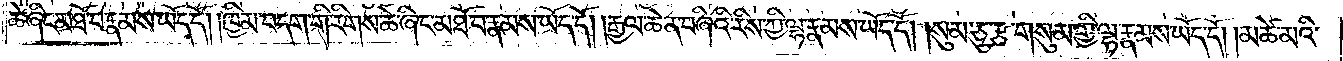ཆེ་ཞིང་མཐོ་བ་རྣམས་ཡོད་དོ། །ཁྱིམ་བདག་གི་རིགས་ཆེ་ཞིང་མཐོ་བ་རྣམས་ཡོད་དོ། །རྒྱལ་ཆེན་བཞིའི་རིས་ཀྱི་ལྷ་རྣམས་ཡོད་དོ། །སུམ་ཅུ་རྩ་གསུམ་གྱི་ལྷ་རྣམས་ཡོད་དོ། །མཚེ་མའི་
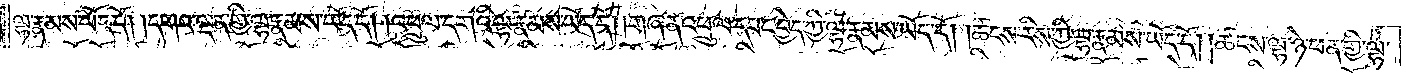ལྷ་རྣམས་ཡོད་དོ། །དགའ་ལྡན་གྱི་ལྷ་རྣམས་ཡོད་དོ། །འཕྲུལ་དགའི་ལྷ་རྣམས་ཡོད་དོ། །གཞན་འཕྲུལ་དབང་བྱེད་ཀྱི་ལྷ་རྣམས་ཡོད་དོ། །ཚངས་རིས་ཀྱི་ལྷ་རྣམས་ཡོད་དོ། །ཚངས་ལྷ་ཉེ་ཕན་གྱི་ལྷ་
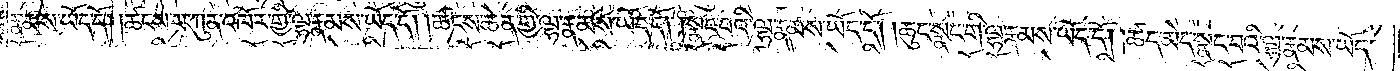རྣམས་ཡོད་དོ། །ཚངས་པ་ཀུན་འཁོར་གྱི་ལྷ་རྣམས་ཡོད་དོ། །ཚངས་ཆེན་གྱི་ལྷ་རྣམས་ཡོད་དོ། །སྣང་བའི་ལྷ་རྣམས་ཡོད་དོ། །ཆུང་སྣང་གི་ལྷ་རྣམས་ཡོད་དོ། །ཚད་མེད་སྣང་བའི་ལྷ་རྣམས་ཡོད་
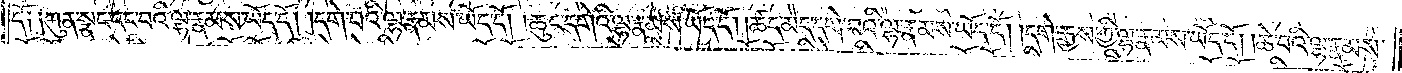དོ༑ ༑ཀུན་སྣང་དང་བའི་ལྷ་རྣམས་ཡོད་དོ། །དགེ་བའི་ལྷ་རྣམས་ཡོད་དོ། །ཆུང་དགེའི་ལྷ་རྣམས་ཡོད་དོ། །ཚད་མེད་དགེ་བའི་ལྷ་རྣམས་ཡོད་དོ། །དགེ་རྒྱས་ཀྱི་ལྷ་རྣམས་ཡོད་དོ༎ ཆེ་བའི་ལྷ་རྣམས་
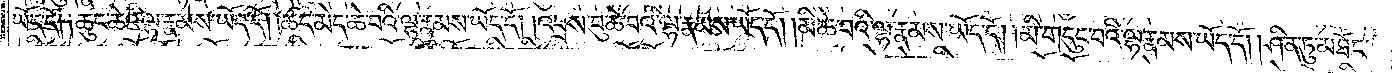ཡོད་དོ། །ཆུང་ཆེའི་ལྷ་རྣམས་ཡོད་དོ། །ཚད་མེད་ཆེ་བའི་ལྷ་རྣམས་ཡོད་དོ། །འབྲས་བུ་ཆེ་བའི་ལྷ་རྣམས་ཡོད་དོ། །མི་ཆེ་བའི་ལྷ་རྣམས་ཡོད་དོ། །མི་གདུང་བའི་ལྷ་རྣམས་ཡོད་དོ། །ཤིན་ཏུ་མཐོང་
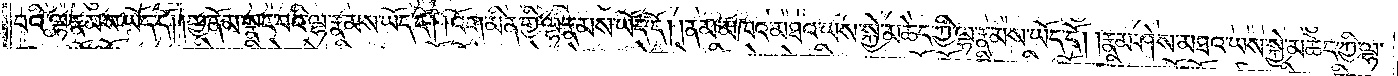བའི་ལྷ་རྣམས་ཡོད་དོ། །གྱ་ནོམ་སྣང་བའི་ལྷ་རྣམས་ཡོད་དོ། །འོག་མིན་གྱི་ལྷ་རྣམས་ཡོད་དོ། །ནམ་མཁའ་མཐའ་ཡས་སྐྱེ་མཆེད་ཀྱི་ལྷ་རྣམས་ཡོད་དོ། །རྣམ་ཤེས་མཐའ་ཡས་སྐྱེ་མཆེད་ཀྱི་ལྷ་
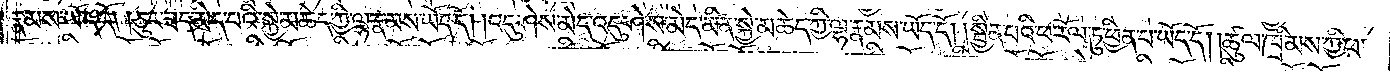རྣམས་ཡོད་དོ། །ཅུང་ཟད་མེད་པའི་སྐྱེ་མཆེད་ཀྱི་ལྷ་རྣམས་ཡོད་དོ། །འདུ་ཤེས་མེད་འདུ་ཤེས་མེད་མིན་སྐྱེ་མཆེད་ཀྱི་ལྷ་རྣམས་ཡོད་དོ། །སྦྱིན་པའི་ཕ་རོལ་ཏུ་ཕྱིན་པ་ཡོད་དོ། །ཚུལ་ཁྲིམས་ཀྱི་ཕ་
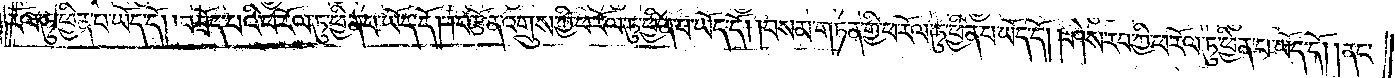རོལ་ཏུ་ཕྱིན་པ་ཡོད་དོ། །བཟོད་པའི་ཕ་རོལ་ཏུ་ཕྱིན་པ་ཡོད་དོ། །བརྩོན་འགྲུས་ཀྱི་ཕ་རོལ་ཏུ་ཕྱིན་པ་ཡོད་དོ། །བསམ་གཏན་གྱི་ཕ་རོལ་ཏུ་ཕྱིན་པ་ཡོད་དོ། །ཤེས་རབ་ཀྱི་ཕ་རོལ་ཏུ་ཕྱིན་པ་ཡོད་དོ། །ནང་
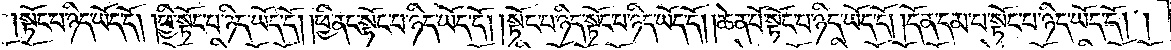སྟོང་པ་ཉིད་ཡོད་དོ། །ཕྱི་སྟོང་པ་ཉིད་ཡོད་དོ། །ཕྱི་ནང་སྟོང་པ་ཉིད་ཡོད་དོ། །སྟོང་པ་ཉིད་སྟོང་པ་ཉིད་ཡོད་དོ། །ཆེན་པོ་སྟོང་པ་ཉིད་ཡོད་དོ། །དོན་དམ་པ་སྟོང་པ་ཉིད་ཡོད་དོ། །
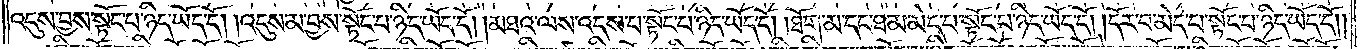འདུས་བྱས་སྟོང་པ་ཉིད་ཡོད་དོ། །འདུས་མ་བྱས་སྟོང་པ་ཉིད་ཡོད་དོ། །མཐའ་ལས་འདས་པ་སྟོང་པ་ཉིད་ཡོད་དོ། །ཐོག་མ་དང་ཐ་མ་མེད་པ་སྟོང་པ་ཉིད་ཡོད་དོ། །དོར་བ་མེད་པ་སྟོང་པ་ཉིད་ཡོད་དོ། །
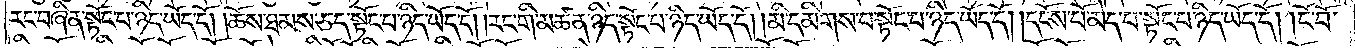རང་བཞིན་སྟོང་པ་ཉིད་ཡོད་དོ། །ཆོས་ཐམས་ཅད་སྟོང་པ་ཉིད་ཡོད་དོ། །རང་གི་མཚན་ཉིད་སྟོང་པ་ཉིད་ཡོད་དོ། །མི་དམིགས་པ་སྟོང་པ་ཉིད་ཡོད་དོ། །དངོས་པོ་མེད་པ་སྟོང་པ་ཉིད་ཡོད་དོ། །ངོ་བོ་
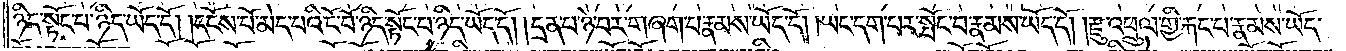ཉིད་སྟོང་པ་ཉིད་ཡོད་དོ། །དངོས་པོ་མེད་པའི་ངོ་བོ་ཉིད་སྟོང་པ་ཉིད་ཡོད་དོ། །དྲན་པ་ཉེ་བར་གཞག་པ་རྣམས་ཡོད་དོ། །ཡང་དག་པར་སྤོང་བ་རྣམས་ཡོད་དོ། །རྫུ་འཕྲུལ་གྱི་རྐང་པ་རྣམས་ཡོད་
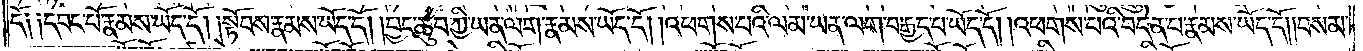དོ༑ ༑དབང་པོ་རྣམས་ཡོད་དོ། །སྟོབས་རྣམས་ཡོད་དོ། །བྱང་ཆུབ་ཀྱི་ཡན་ལག་རྣམས་ཡོད་དོ། །འཕགས་པའི་ལམ་ཡན་ལག་བརྒྱད་པ་ཡོད་དོ། །འཕགས་པའི་བདེན་པ་རྣམས་ཡོད་དོ། །བསམ་
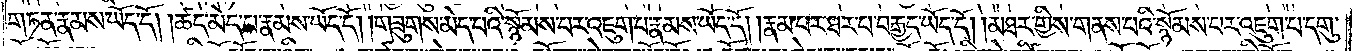གཏན་རྣམས་ཡོད་དོ། །ཚད་མེད་པ་རྣམས་ཡོད་དོ། །གཟུགས་མེད་པའི་སྙོམས་པར་འཇུག་པ་རྣམས་ཡོད་དོ། །རྣམ་པར་ཐར་པ་བརྒྱད་ཡོད་དོ། །མཐར་གྱིས་གནས་པའི་སྙོམས་པར་འཇུག་པ་དགུ་
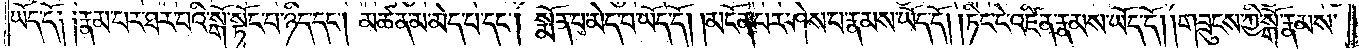ཡོད་དོ། །རྣམ་པར་ཐར་པའི་སྒོ་སྟོང་པ་ཉིད་དང༌། མཚན་མ་མེད་པ་དང༌། སྨོན་པ་མེད་པ་ཡོད་དོ། །མངོན་པར་ཤེས་པ་རྣམས་ཡོད་དོ། །ཏིང་ངེ་འཛིན་རྣམས་ཡོད་དོ། །གཟུངས་ཀྱི་སྒོ་རྣམས་
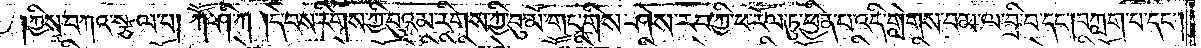ཀྱིས་བཀའ་སྩལ་པ། ཀཽ་ཤི་ཀ །དེ་བས་རིགས་ཀྱི་བུའམ་རིགས་ཀྱི་བུ་མོ་གང་གིས་ཤེས་རབ་ཀྱི་ཕ་རོལ་ཏུ་ཕྱིན་པ་འདི་གླེགས་བམ་ལ་བྲི་བ་དང༌། བཀླག་པ་དང༌།
